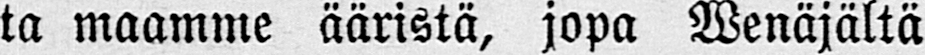ta maamme ääristä, jopa Wenäjältä
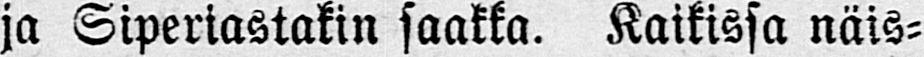ja Siperiastakin saakka. Kaikissa näis-
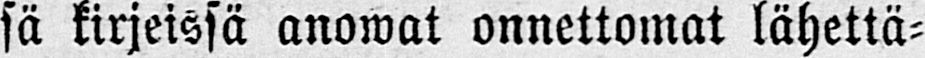sä kirjeissä anowat onnettomat lähettä-
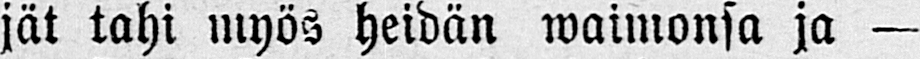jät tahi myös heidän waimonsa ja —
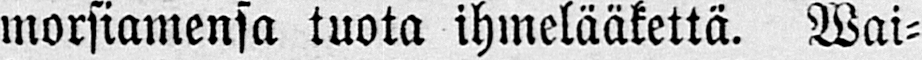morsiamensa tuota ihmelääkettä. Wai-
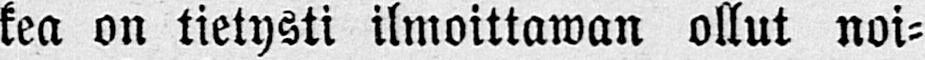kea on tietysti ilmoittawan ollut noi-
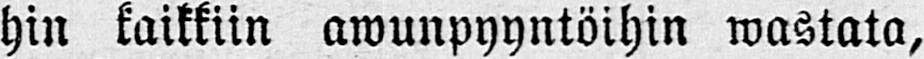hin kaikkiin awunpyyntöihin wastata,
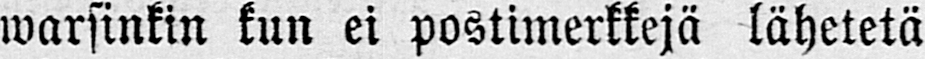warsinkin kun ei postimerkkejä lähetetä
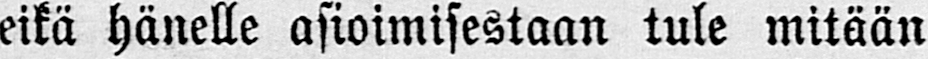eikä hänelle asioimisestaan tule mitään
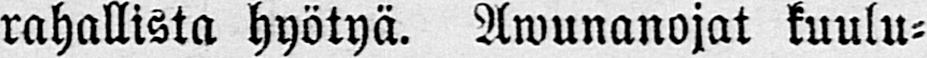rahallista hyötyä. Awunanojat kuulu-
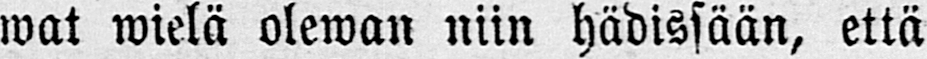wat wielä olewan niin hädissään, että
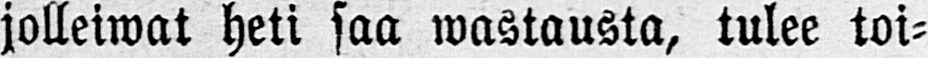jolleiwat heti saa wastausta, tulee toi-
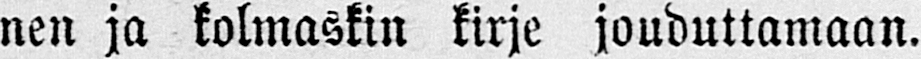nen ja kolmaskin kirje jouduttamaan.
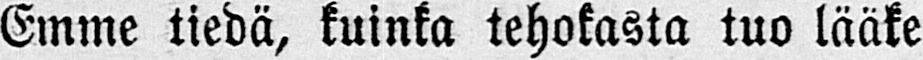Emme tiedä, kuinka tehokasta tuo lääke
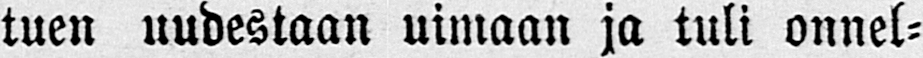tuen uudestaan uimaan ja tuli onnel-
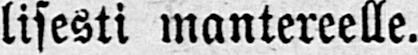lisesti mantereelle.
